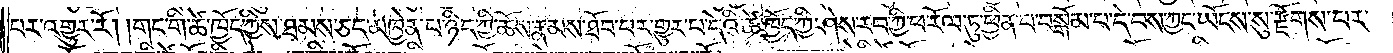པར་འགྱུར་རོ། །གང་གི་ཚེ་ཁྱོད་ཀྱིས་ཐམས་ཅད་མཁྱེན་པ་ཉིད་ཀྱི་ཆོས་རྣམས་ཐོབ་པར་གྱུར་པ་དེའི་ཚེ་ཁྱོད་ཀྱི་ཤེས་རབ་ཀྱི་ཕ་རོལ་ཏུ་ཕྱིན་པ་སྒོམ་པ་དེ་བས་ཀྱང་ཡོངས་སུ་རྫོགས་པར་
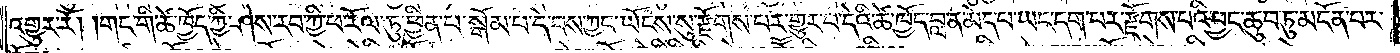འགྱུར་རོ། །གང་གི་ཚེ་ཁྱོད་ཀྱི་ཤེས་རབ་ཀྱི་ཕ་རོལ་ཏུ་ཕྱིན་པ་སྒོམ་པ་དེ་བས་ཀྱང་ཡོངས་སུ་རྫོགས་པར་གྱུར་པ་དེའི་ཚེ་ཁྱོད་བླ་ན་མེད་པ་ཡང་དག་པར་རྫོགས་པའི་བྱང་ཆུབ་ཏུ་མངོན་པར་
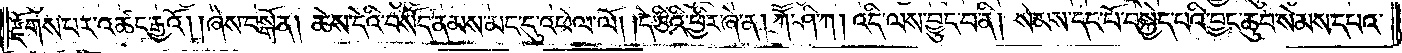རྫོགས་པར་འཚང་རྒྱའོ། །ཞེས་བསྒོ་ན། ཆེས་དེའི་བསོད་ནམས་མང་དུ་འཕེལ་ལོ། །དེ་ཅིའི་ཕྱིར་ཞེ་ན། ཀཽ་ཤི་ཀ། འདི་ལས་བྱུང་བ་ནི། སེམས་དང་པོ་བསྐྱེད་པའི་བྱང་ཆུབ་སེམས་དཔའ་
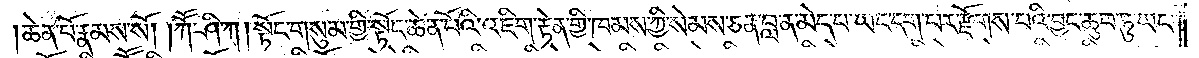ཆེན་པོ་རྣམས་སོ། །ཀཽ་ཤི་ཀ། སྟོང་གསུམ་གྱི་སྟོང་ཆེན་པོའི་འཇིག་རྟེན་གྱི་ཁམས་ཀྱི་སེམས་ཅན་བླ་ན་མེད་པ་ཡང་དག་པར་རྫོགས་པའི་བྱང་ཆུབ་ཏུ་ཡང་
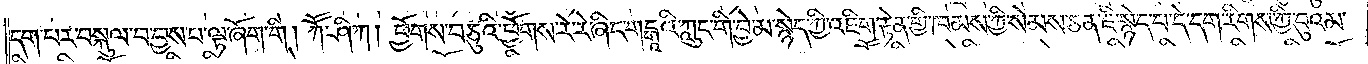དག་པར་བསྐུལ་བ་བྱས་པ་ལྟ་ཞོག་གི །ཀཽ་ཤི་ཀ། ཕྱོགས་བཅུའི་ཕྱོགས་རེ་རེ་ཞིང་གངྒཱའི་ཀླུང་གི་བྱེ་མ་སྙེད་ཀྱི་འཇིག་རྟེན་གྱི་ཁམས་ཀྱི་སེམས་ཅན་ཇི་སྙེད་པ་དེ་དག་རིགས་ཀྱི་བུའམ་
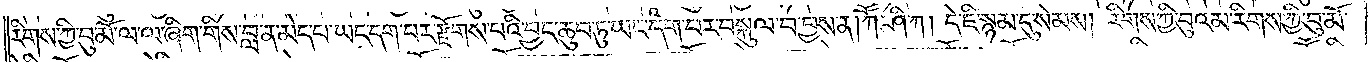རིགས་ཀྱི་བུ་མོ་ལ་ལ་ཞིག་གིས་བླ་ན་མེད་པ་ཡང་དག་པར་རྫོགས་པའི་བྱང་ཆུབ་ཏུ་ཡང་དག་པར་བསྐུལ་བ་བྱས་ན། ཀཽ་ཤི་ཀ། དེ་ཇི་སྙམ་དུ་སེམས། རིགས་ཀྱི་བུའམ་རིགས་ཀྱི་བུ་མོ་
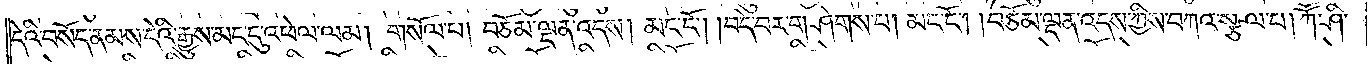དེའི་བསོད་ནམས་དེའི་རྒྱུས་མང་དུ་འཕེལ་ལམ། གསོལ་པ། བཅོམ་ལྡན་འདས། མང་ངོ༌། །བདེ་བར་གཤེགས་པ། མང་ངོ༌། །བཅོམ་ལྡན་འདས་ཀྱིས་བཀའ་སྩལ་པ། ཀཽ་ཤི་
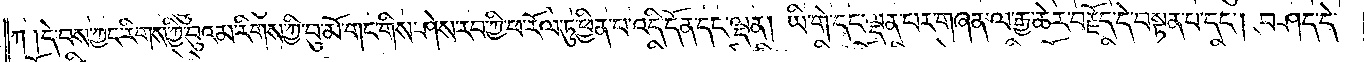ཀ། དེ་བས་ཀྱང་རིགས་ཀྱི་བུའམ་རིགས་ཀྱི་བུ་མོ་གང་གིས་ཤེས་རབ་ཀྱི་ཕ་རོལ་ཏུ་ཕྱིན་པ་འདི་དོན་དང་ལྡན། ཡི་གེ་དང་ལྡན་པར་གཞན་ལ་རྒྱ་ཆེར་བརྗོད་དེ་བསྟན་པ་དང༌། བཤད་དེ་
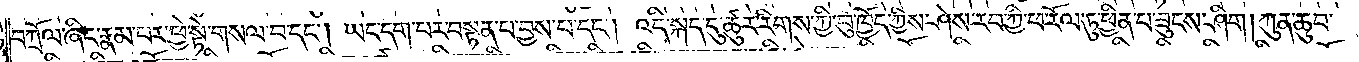བཀྲོལ་ཞིང་རྣམ་པར་ཕྱེ་སྟེ་གསལ་བ་དང༌། ཡང་དག་པར་བསྟན་པ་བྱས་པ་དང༌། འདི་སྐད་དུ་ཚུར་རིགས་ཀྱི་བུ་ཁྱོད་ཀྱིས་ཤེས་རབ་ཀྱི་ཕ་རོལ་ཏུ་ཕྱིན་པ་ཟུངས་ཤིག །ཀུན་ཆུབ་
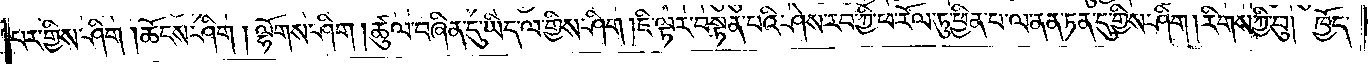པར་གྱིས་ཤིག། །ཆོངས་ཤིག། ལྷོགས་ཤིག །ཚུལ་བཞིན་དུ་ཡིད་ལ་གྱིས་ཤིག །ཇི་ལྟར་བསྟན་པའི་ཤེས་རབ་ཀྱི་ཕ་རོལ་ཏུ་ཕྱིན་པ་ལ་ནན་ཏན་དུ་གྱིས་ཤིག །རིགས་ཀྱི་བུ། ཁྱོད་
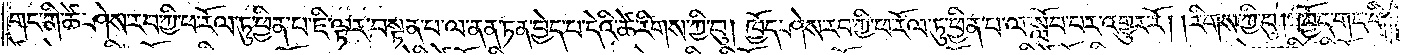གང་གི་ཚེ་ཤེས་རབ་ཀྱི་ཕ་རོལ་ཏུ་ཕྱིན་པ་ཇི་ལྟར་བསྟན་པ་ལ་ནན་ཏན་བྱེད་པ་དེའི་ཚེ་རིགས་ཀྱི་བུ། ཁྱོད་ཤེས་རབ་ཀྱི་ཕ་རོལ་ཏུ་ཕྱིན་པ་ལ་སློབ་པར་འགྱུར་རོ། །རིགས་ཀྱི་བུ། ཁྱོད་གང་གི་
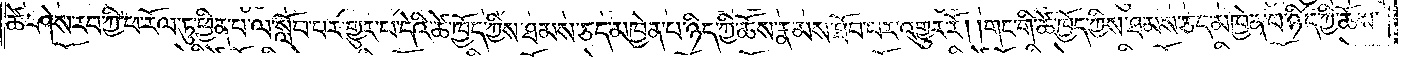ཚེ་ཤེས་རབ་ཀྱི་ཕ་རོལ་ཏུ་ཕྱིན་པ་ལ་སློབ་པར་གྱུར་པ་དེའི་ཚེ་ཁྱོད་ཀྱིས་ཐམས་ཅད་མཁྱེན་པ་ཉིད་ཀྱི་ཆོས་རྣམས་ཐོབ་པར་འགྱུར་རོ། །གང་གི་ཆེ་ཁྱོད་ཀྱིས་ཐམས་ཅད་མཁྱེན་པ་ཉིད་ཀྱི་ཆོས་
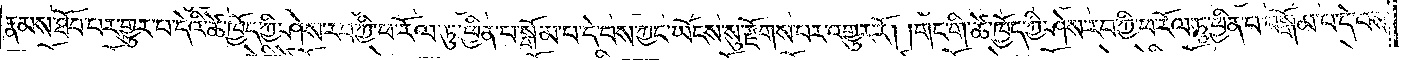རྣམས་ཐོབ་པར་གྱུར་པ་དེའི་ཚེ་ཁྱོད་ཀྱི་ཤེས་རབ་ཀྱི་ཕ་རོལ་ཏུ་ཕྱིན་པ་སྒོམ་པ་དེ་བས་ཀྱང་ཡོངས་སུ་རྫོགས་པར་འགྱུར་རོ། །གང་གི་ཚེ་ཁྱོད་ཀྱི་ཤེས་རབ་ཀྱི་ཕ་རོལ་ཏུ་ཕྱིན་པ་བསྒོམ་པ་དེ་བས་
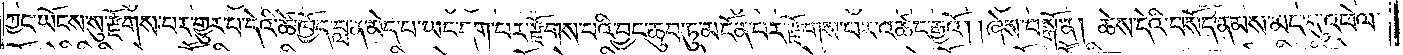ཀྱང་ཡོངས་སུ་རྫོགས་པར་གྱུར་པ་དེའི་ཚེ་ཁྱོད་བླ་ན་མེད་པ་ཡང་དག་པར་རྫོགས་པའི་བྱང་ཆུབ་ཏུ་མངོན་པར་རྫོགས་པར་འཚང་རྒྱའོ། །ཞེས་བསྒོ་ན། ཆེས་དེའི་བསོད་ནམས་མང་དུ་འཕེལ་
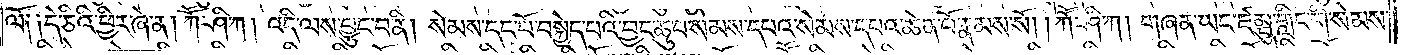ལོ༑ ༑དེ་ཅིའི་ཕྱིར་ཞེ་ན། ཀཽ་ཤི་ཀ། འདི་ལས་བྱུང་བ་ནི། སེམས་དང་པོ་བསྐྱེད་པའི་བྱང་ཆུབ་སེམས་དཔའ་སེམས་དཔའ་ཆེན་པོ་རྣམས་སོ། །ཀཽ་ཤི་ཀ། གཞན་ཡང་ཛམྦུ་གླིང་གི་སེམས་
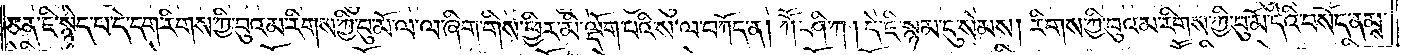ཅན་ཇི་སྙེད་པ་དེ་དག་རིགས་ཀྱི་བུའམ་རིགས་ཀྱི་བུ་མོ་ལ་ལ་ཞིག་གིས་ཕྱིར་མི་ལྡོག་པའི་ས་ལ་བཀོད་ན། ཀཽ་ཤི་ཀ། དེ་ཇི་སྙམ་དུ་སེམས། རིགས་ཀྱི་བུའམ་རིགས་ཀྱི་བུ་མོ་དེའི་བསོད་ནམས་
